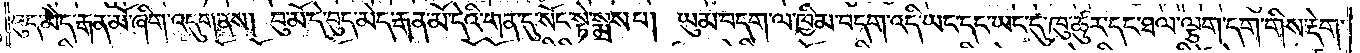བུད་མེད་རྒན་མོ་ཞིག་འདུག་ནས། བུ་མོ་དེ་བུད་མེད་རྒན་མོ་དེའི་གན་དུ་སོང་སྟེ་སྨྲས་པ། ཡུམ་བདག་ལ་ཁྱིམ་བདག་འདི་ཡང་དང་ཡང་དུ་ཁུ་ཚུར་དང་ཐལ་ལྕག་དག་གིས་རྡེག་
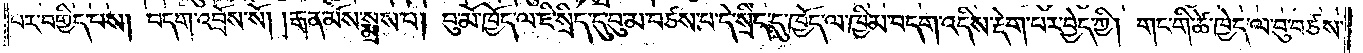བར་བགྱིད་པས། བདག་འབྲོས་སོ། །རྒན་མོས་སྨྲས་པ། བུ་མོ་ཁྱོད་ལ་ཇི་སྲིད་དུ་བུ་མ་བཙས་པ་དེ་སྲིད་དུ་ཁྱོད་ལ་ཁྱིམ་བདག་འདིས་རྡེག་པར་བྱེད་ཀྱི། གང་གི་ཚེ་ཁྱེད་ལ་བུ་བཙས་
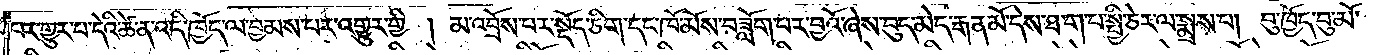པར་གྱུར་པ་དེའི་ཚེ་ན་འདི་ཁྱོད་ལ་བྱམས་པར་འགྱུར་གྱི ། མ་འབྲོས་པར་སྡོད་ཅིག་དང་ཁོ་མོས་བཟློག་པར་བྱའོ་ཞེས་བུད་མེད་རྒན་མོ་དེས་ཐ་ག་པར་སྤྱི་ཅེར་ལ་སྨྲས་པ། བུ་ཁྱོད་བུ་མོ་
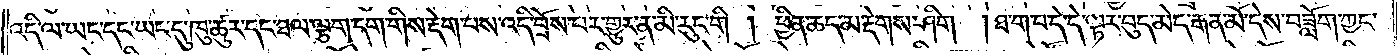འདི་ལ་ཡང་དང་ཡང་དུ་ཁུ་ཚུར་དང་ཐལ་ལྕག་དག་གིས་རྡེག་པས་འདི་བྲོས་པར་གྱུར་ན་མི་རུང་གི ། ཕྱིན་ཆད་མ་རྡེགས་ཤིག  །ཐ་ག་པ་དེ་དེ་ལྟར་བུད་མེད་རྒན་མོ་དེས་བཟློག་ཀྱང་
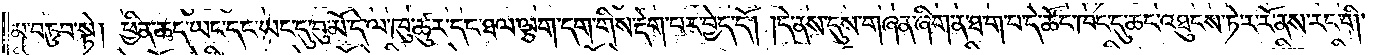མ་བཏུབ་སྟེ། ཕྱིན་ཆད་ཡང་དང་ཡང་དུ་བུ་མོ་དེ་ལ་ཁུ་ཚུར་དང་ཐལ་ལྕག་དག་གིས་རྡེག་པར་བྱེད་དོ། །དེ་ནས་དུས་གཞན་ཞིག་ན་ཐ་ག་པ་དེ་ཚོང་ཁང་དུ་ཆང་འཐུངས་ཏེ་ར་རོ་ནས་རང་གི་
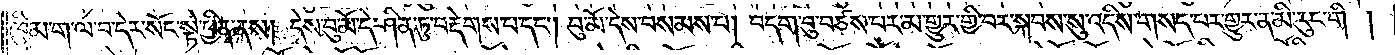ཁྱིམ་ག་ལ་བ་དེར་སོང་སྟེ་ཕྱིན་ནས། དེས་བུ་མོ་དེ་ཤིན་ཏུ་བརྡེགས་པ་དང༌། བུ་མོ་དེས་བསམས་པ། བདག་བུ་བཙས་པར་མ་གྱུར་གྱི་བར་སྐབས་སུ་འདིས་གསད་པར་གྱུར་ན་མི་རུང་གི །
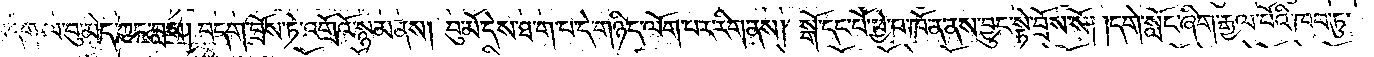བདག་ལ་བུ་མེད་ཀྱང་བླས། བདག་བྲོས་ཏེ་འགྲོའོ་སྙམ་ནས། བུ་མོ་དེས་ཐ་ག་པ་དེ་གཉིད་ལོག་པར་རིག་ནས། སྒོ་དང་པོ་ཕྱེ་བ་ཁོ་ན་ནས་བྱུང་སྟེ་བྲོས་སོ། །དགེ་སློང་ཞིག་རྒྱལ་པོའི་ཁབ་ཏུ་
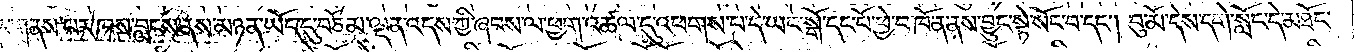དབྱར་གནས་པར་ཁས་བླངས་ནས་མཉན་ཡོད་དུ་བཅོམ་ལྡན་འདས་ཀྱི་ཞབས་ལ་ཕྱག་འཚལ་དུ་འཕགས་པ་དེ་ཡང་སྒོ་དང་པོ་ཕྱེ་བ་ཁོ་ན་ནས་བྱུང་སྟེ་སོང་བ་དང༌། བུ་མོ་དེས་དགེ་སློང་དེ་མཐོང་
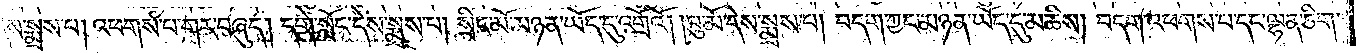ནས་དེས་སྨྲས་པ། འཕགས་པ་གར་བཞུད། དགེ་སློང་དེས་སྨྲས་པ། སྲིང་མོ་མཉན་ཡོད་དུ་འགྲོའོ། །བུ་མོ་དེས་སྨྲས་པ། བདག་ཀྱང་མཉན་ཡོན་དུ་མཆིས། བདག་འཕགས་པ་དང་ལྷན་ཅིག་
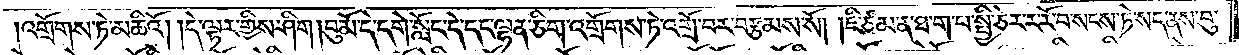འགྲོགས་ཏེ་མཆིའོ། །དེ་ལྟར་གྱིས་ཤིག །བུ་མོ་དེ་དགེ་སློང་དེ་དང་ལྷན་ཅིག་འགྲོགས་ཏེ་འགྲོ་བར་བརྩམས་སོ། །ཇི་ཙམ་ན་ཐ་ག་པ་སྤྱི་ཅེར་ར་རོ་བ་སངས་ཏེ་སད་ནས་བུ་
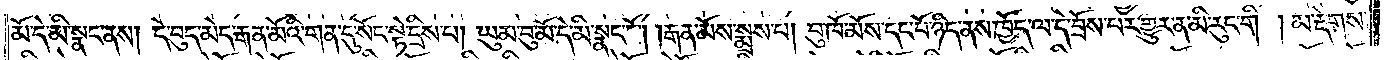མོ་དེ་མི་སྣང་ནས། དེ་བུད་མེད་རྒན་མོའི་གན་དུ་སོང་སྟེ་དྲིས་པ། ཡུམ་བུ་མོ་དེ་མི་སྣང་ངོ༌། །རྒན་མོས་སྨྲས་པ། བུ་ཁོ་མོས་དང་པོ་ཉིད་ནས་ཁྱོད་ལ་དེ་བྲོས་པར་གྱུར་ན་མི་རུང་གི །མ་རྡེགས་
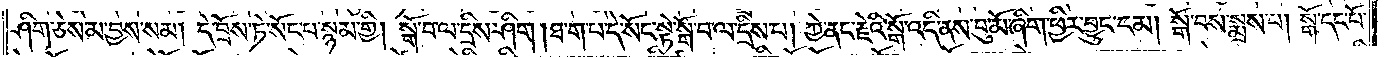ཤིག་ཅེས་མ་བྱས་སམ། དེ་བྲོས་ཏེ་སོང་པ་སྙམ་གྱི། སྒོ་བ་ལ་དྲིས་ཤིག །ཐ་ག་པ་དེ་སོང་སྟེ་སྒོ་བ་ལ་དྲིས་པ། ཀྱེ་ནང་རྗེའི་སྒོ་འདི་ནས་བུ་མོ་ཞིག་ཕྱིར་བྱུང་ངམ། སྒོ་བས་སྨྲས་པ། སྒོ་དང་པོ་
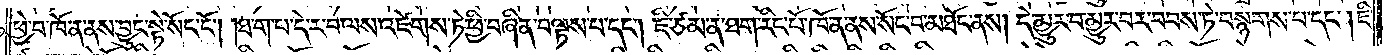ཕྱེ་བ་ཁོ་ན་ནས་བྱུང་སྟེ་སོང་ངོ༌། །ཐ་ག་པ་དེར་བ་ལས་འཛེགས་ཏེ་ཕྱི་བཞིན་བལྟས་པ་དང༌། ཇི་ཙམ་ན་ཐག་རིང་པོ་ཁོ་ན་ནས་སོང་བ་མཐོང་ནས། དེ་མྱུར་བ་མྱུར་བར་བབས་ཏེ་བསྙགས་པ་དང༌། ཇི་
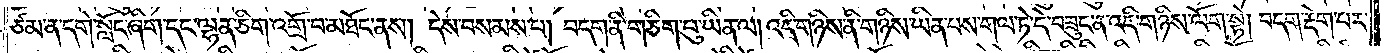ཙམ་ན་དགེ་སློང་ཞིག་དང་ལྷན་ཅིག་འགྲོ་བ་མཐོང་ནས། དེས་བསམས་པ། བདག་ནི་གཅིག་པུ་ཡིན་ལ། འདི་གཉིས་ནི་གཉིས་ཡིན་པས་གལ་ཏེ་དེ་བཟུང་ན་འདི་གཉིས་ལོག་སྟེ། བདག་རྡེག་པར་
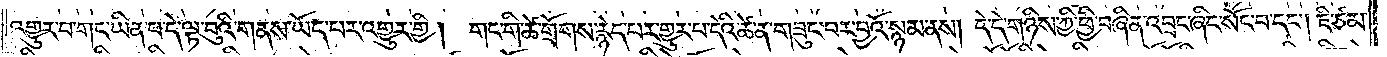འགྱུར་བ་གང་ཡིན་པ་དེ་ལྟ་བུའི་གནས་ཡོད་པར་འགྱུར་གྱི། གང་གི་ཚེ་གྲོགས་རྙེད་པར་གྱུར་པ་དེའི་ཚེ་ན་གཟུང་བར་བྱའོ་སྙམ་ནས། དེ་དེ་གཉིས་ཀྱི་ཕྱི་བཞིན་འབྲང་ཞིང་སོང་བ་དང༌། ཇི་ཙམ་
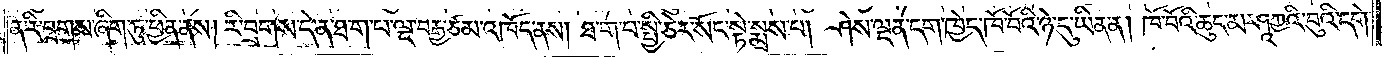ན་རི་བྲགས་ཞིག་ཏུ་ཕྱིན་ནས། རི་བྲགས་དེ་ན་ཐ་ག་པ་ལྔ་བརྒྱ་ཙམ་འཁོད་ནས། ཐ་ག་པ་སྤྱི་ཅེར་སོང་སྟེ་སྨྲས་པ། ཤེས་ལྡན་དག་ཁྱེད་ཁོ་བོའི་ཉེ་དུ་ཡིན་ན། ཁོ་བོའི་ཆུང་མར་ཤཱཀྱའི་བུའི་དགེ་
